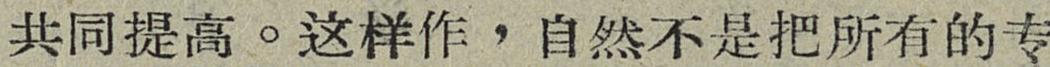共同提高。这样作，自然不是把所有的专
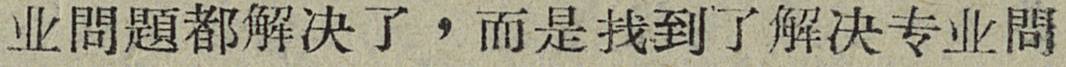业問題都解决了，而是找到了解决专业問
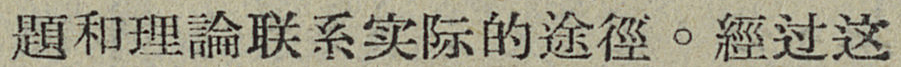題和理論联系实际的途徑。經过这
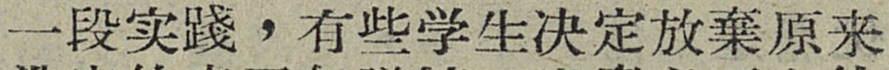一段实踐，有些学生决定放棄原来
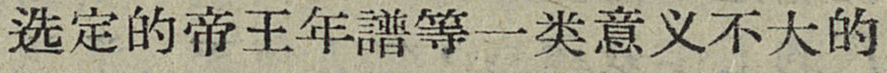选定的帝王年譜等一类意义不大的
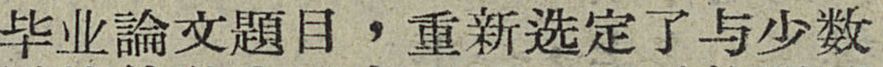毕业論文題目，重新选定了与少数
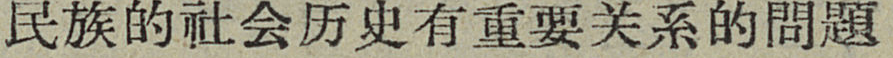民族的社会历史有重要关系的問題
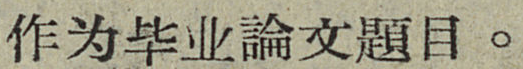作为毕业論文題目。
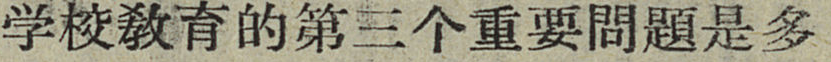学习敎育的第三个重要問題是多
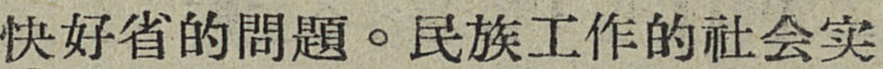快好省的問題。民族工作的社会实
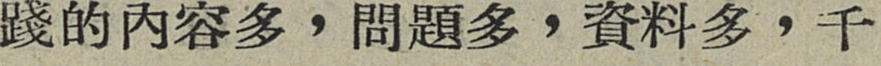踐的內容多，問題多，資料多，千
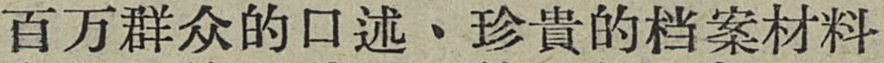百万群众的口述、珍貴的档案材料
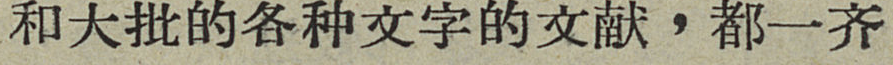和大批的各种文字的文献，都一齐
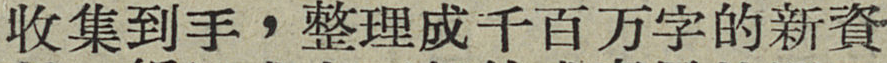收集到手，整理成千百万字的新資
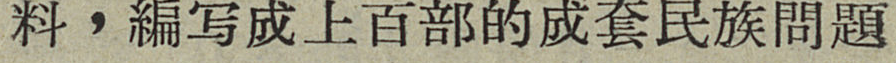料，編写成上百部的成套民族問題
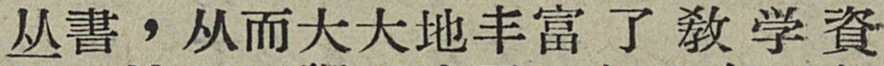丛書，从而大大地丰富了敎学資
